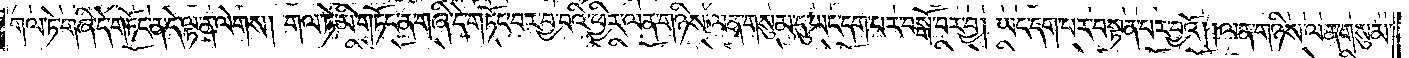གལ་ཏེ་གཞི་དེ་གཏོང་ན་དེ་ལྟ་ན་ལེགས། གལ་ཏེ་མི་གཏོང་ན་གཞི་དེ་གཏོང་བར་བྱ་བའི་ཕྱིར་ལན་གཉིས་ལན་གསུམ་དུ་ཡང་དག་པར་བསྒོ་བར་བྱ། ཡང་དག་པར་བསྟན་པར་བྱའོ། །ལན་གཉིས་ལན་གསུམ་
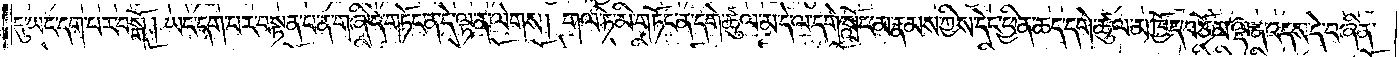དུ་ཡང་དག་པར་བསྒོ། ཡང་དག་པར་བསྟན་པ་ན་གཞི་དེ་གཏོང་ན་དེ་ལྟ་ན་ལེགས། གལ་ཏེ་མི་གཏོང་ན་དགེ་ཚུལ་མ་དེ་ལ་དགེ་སློང་མ་རྣམས་ཀྱིས་དེར་ཕྱིན་ཆད་དགེ་ཚུལ་མ་ཁྱོད་བཅོམ་ལྡན་འདས་དེ་བཞིན་
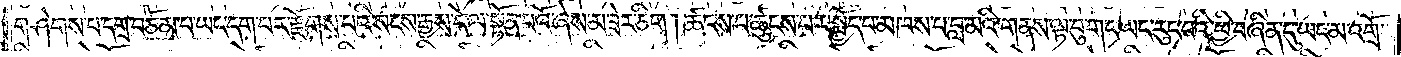གཤེགས་པ་དགྲ་བཅོམ་པ་ཡང་དག་པར་རྫོགས་པའི་སངས་རྒྱས་དེ་ལ་སྟོན་པའོ་ཞེས་མ་ཟེར་ཅིག །ཚངས་པ་ཚུངས་པར་སྤྱོད་པ་མཁས་པ་བླ་མའི་གནས་ལྟ་བུ་གང་ཡང་རུང་བའི་ཕྱི་བཞིན་དུ་ཡང་མ་འགྲོ་
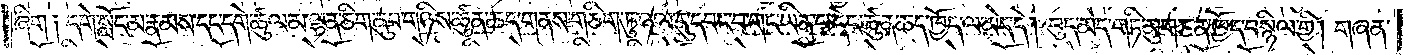ཞིག༑ དགེ་སློང་མ་རྣམས་དང་དགེ་ཚུལ་མ་ལྷན་ཅིག་ནུབ་གཉིས་ཚུན་ཆད་གནས་གཅིག་ཏུ་ཉལ་དུ་དབང་བ་གང་ཡིན་པ་དེང་ཚུན་ཆད་ཁྱོད་ལ་མེད་དེ། བུད་མེད་གཏི་མུག་ཅན་ཁྱོད་བསྙིལ་གྱི། གཞན་
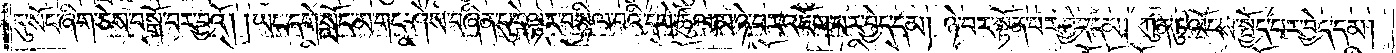དུ་སོང་ཞིག་ཅེས་བསྒོ་བར་བྱའོ། །ཡང་དགེ་སློང་མ་གང་ཤེས་བཞིན་དུ་དེ་ལྟར་བསྙིལ་བའི་དགེ་ཚུལ་མ་ཉེ་བར་འཇོག་པར་བྱེད་དམ། ཉེ་བར་སྟོན་པར་བྱེད་དམ། ཀུན་ཏུ་ལོངས་སྤྱོད་པར་བྱེད་དམ།
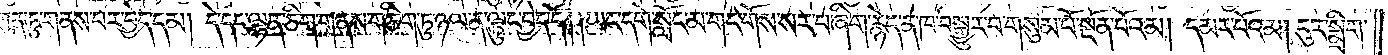ཀུན་ཏུ་གནས་པར་བྱེད་དམ། དེ་དང་ལྷན་ཅིག་གནས་གཅིག་ཏུ་ཉལ་ན་ལྟུང་བྱེད་དོ། །ཡང་དགེ་སློང་མ་གང་གོས་སར་པ་ཞིག་རྙེད་ན་ཁ་བསྒྱུར་བ་གསུམ་པོ་སྔོན་པོའམ། དམར་པོའམ། ངུར་སྨྲིག་
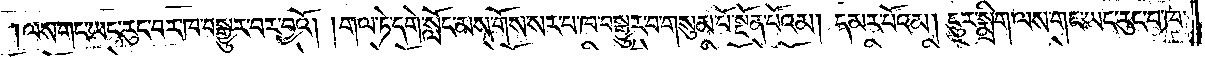ལས་གང་ཡང་རུང་བར་ཁ་བསྒྱུར་བར་བྱའོ། །གལ་ཏེ་དགེ་སློང་མས་གོས་སར་པ་ཁ་བསྒྱུར་བ་གསུམ་པོ་སྔོན་པོའམ། དམར་པོའམ། ངུར་སྨྲིག་ལས་གང་ཡང་རུང་བ་ཁ་
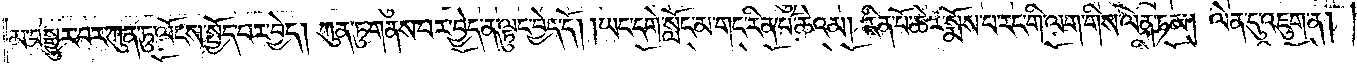མ་བསྒྱུར་བར་ཀུན་ཏུ་ལོངས་སྤྱོད་པར་བྱེད། ཀུན་ཏུ་གནས་པར་བྱེད་ན་ལྟུང་བྱེད་དོ། །ཡང་དགེ་སློང་མ་གང་རིན་པོ་ཆེའམ། རིན་པོ་ཆེར་སྨོས་པ་རང་གི་ལག་གིས་ལེན་ཏམ། ལེན་དུ་འཇུག་ན།
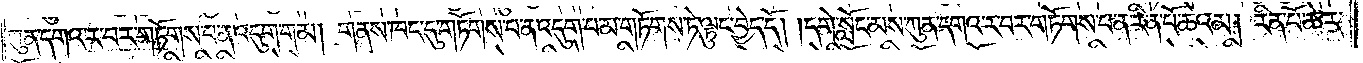ཀུན་དགའ་ར་བར་གཏོགས་པ་ན་འདུག་གམ། གནས་ཁང་དུ་གཏོགས་པ་ན་འདུག་པ་མ་གཏོགས་ཏེ་ལྟུང་བྱེད་དོ། །དགེ་སློང་མས་ཀུན་དགའ་ར་བར་གཏོགས་པ་ན་རིན་པོ་ཆེའམ། རིན་པོ་ཆེར་
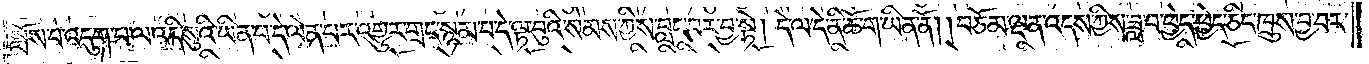སྨོས་པ་འདུག་པ་ལ་འདི་སུའི་ཡིན་པ་དེ་ལེན་པར་འགྱུར་གྲང་སྙམ་པ་དེ་ལྟ་བུའི་སེམས་ཀྱིས་བླང་བར་བྱ་སྟེ། དེ་ལ་དེ་ནི་ཆོ་ག་ཡིན་ནོ། །བཅོམ་ལྡན་འདས་ཀྱིས་ཟླ་བ་ཕྱེད་ཕྱེད་ཅིང་ཁྲུས་བྱ་བར་
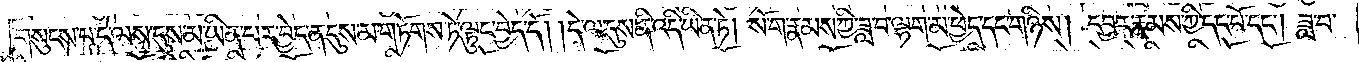གསུངས་པ་དེ་ལས་དུས་མ་ཡིན་པར་བྱེད་ན་དུས་མ་གཏོགས་ཏེ་ལྟུང་བྱེད་དོ། །དེ་ལ་དུས་ནི་འདི་ཡིན་ཏེ། སོ་ག་རྣམས་ཀྱི་ཟླ་བ་ལྷག་མ་ཕྱེད་དང་གཉིས། དབྱར་རྣམས་ཀྱི་དབང་པོ་དང༌། ཟླ་བ་
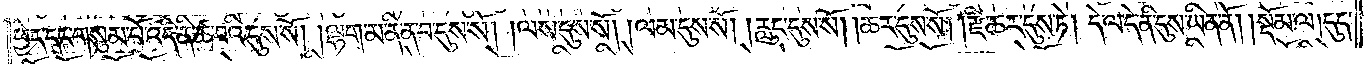ཕྱེད་དང་གསུམ་པོ་འདི་ནི་ཚ་བའི་དུས་སོ། །ལྷག་མ་ནི་ན་བ་དུས་སོ། །ལས་དུས་སོ། །ལས་དུས་སོ། །རླུང་དུས་སོ། །ཆར་དུས་སོ། །རྫི་ཆར་དུས་ཏེ། དེ་ལ་དེ་ནི་དུས་ཡིན་ནོ།    །སྡོམ་ལ། དུད་
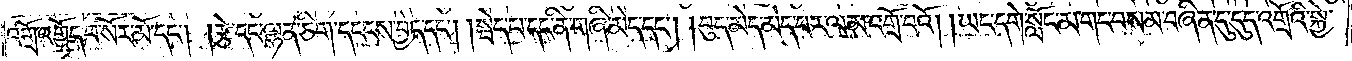འགྲོ་འགྱོད་པ་སོར་མོ་དང༌། །རྩེ་དང་ལྷན་ཅིག་དངངས་བྱེད་དང༌། །སྦེད་པ་དང་ནི་གཞི་མེད་དང༌། །བུད་མེད་མེད་པར་ལམ་འགྲོ་བའོ། །ཡང་དགེ་སློང་མ་གང་བསམ་བཞིན་དུ་དུད་འགྲོའི་སྐྱེ་
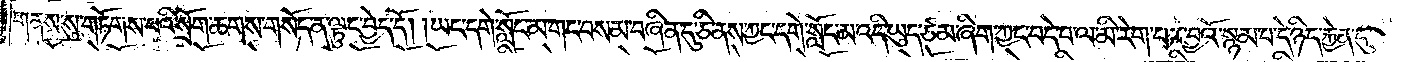གནས་སུ་གཏོགས་པའི་སྲོག་ཆགས་གསོད་ན་ལྟུང་བྱེད་དོ། །ཡང་དགེ་སློང་མ་གང་བསམ་བཞིན་དུ་ཅི་ནས་ཀྱང་དགེ་སློང་མ་འདི་ཡུད་ཙམ་ཞིག་ཀྱང་བདེ་བ་ལ་མི་རེག་པར་བྱའོ་སྙམ་པ་དེ་ཉིད་རྐྱེན་དུ་
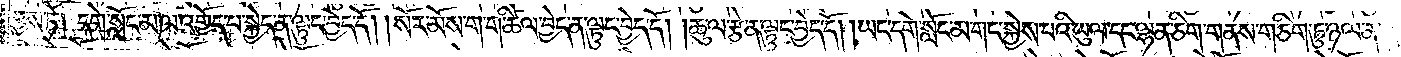བྱས་ཏེ། དགེ་སློང་མ་ལ་འགྱོད་པ་སྐྱེད་ན་ལྟུང་བྱེད་དོ། །སོར་མོས་ག་ག་ཚིལ་བྱེད་ན་ལྟུང་བྱེད་དོ། །ཆུ་ལ་རྩེ་ན་ལྟུང་བྱེད་དོ། །ཡང་དགེ་སློང་མ་གང་སྐྱེས་པའི་ཡུལ་དང་ལྷན་ཅིག་གནས་གཅིག་ཏུ་ཉལ་ན་
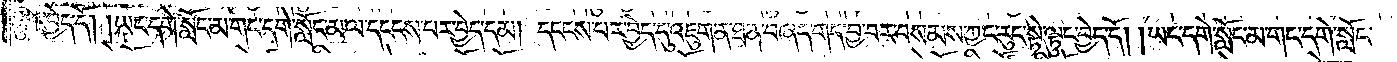ལྟུང་བྱེད་དོ། །ཡང་དགེ་སློང་མ་གང་དགེ་སློང་མ་ལ་དངངས་པར་བྱེད་དམ། དངངས་པར་བྱེད་དུ་འཇུག་ན་ཐ་ན་བཞད་གད་བྱ་བར་བསམས་ཀྱང་རུང་སྟེ་ལྟུང་བྱེད་དོ། །ཡང་དགེ་སློང་མ་གང་དགེ་སློང་
